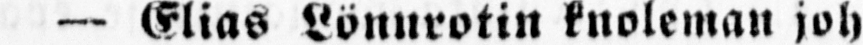— Elias Lönnrotin knoleman joh-
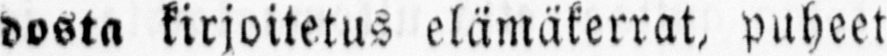dosta kirjoitetus elämäkerrat, puheet
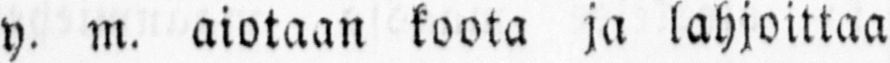y. m. aiotaan koota ja lahjoittaa
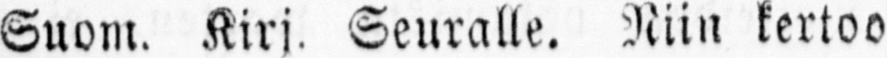Suom. Kirj. Seuralle. Niin kertoo
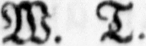W. T.
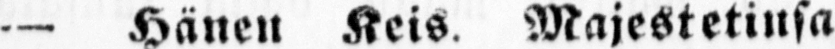— Hänen Keis. Majestetinsa
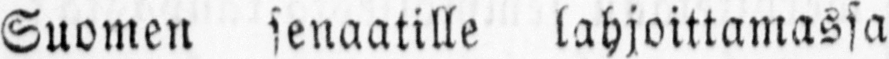Suomen senaatille lahjoittamassa
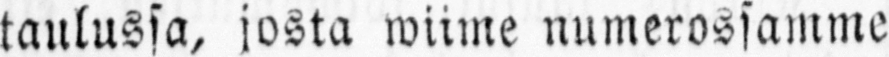taulussa, josta wiime numerossamme
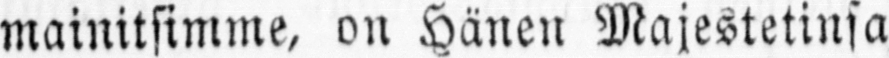mainitsimme, on Hänen Majestetinsa
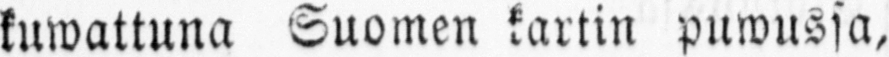kuwattuna Suomen kartin puwussa,
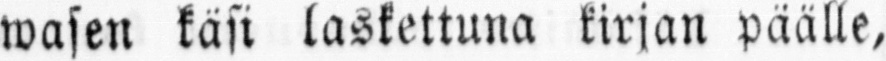wasen käsi laskettuna kirjan päälle,
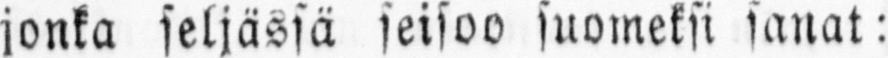jonka seljässä seisoo suomeksi sanat:
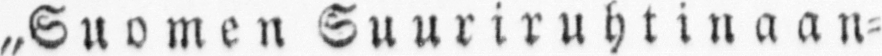„Suomen Suuriruhtinaan-
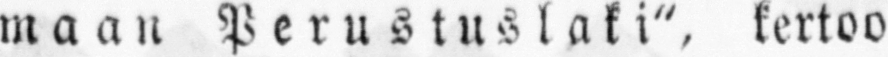maan Perustuslaki", kertoo
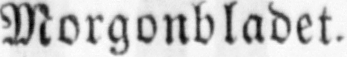Morgonbladet.
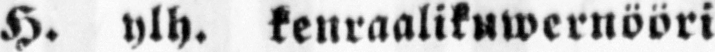— H. ylh. kenraalikuwernööri
